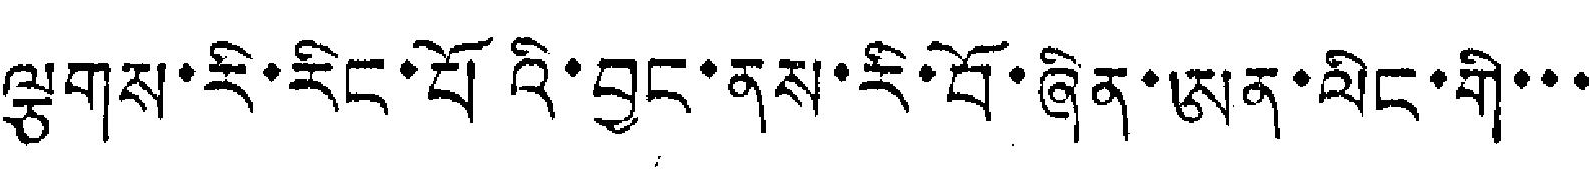ལྕགས་རི་རིང་པོའི་བྱང་ནས་རི་བོ་ཞིན་ཨན་ལིང་གི་་་
